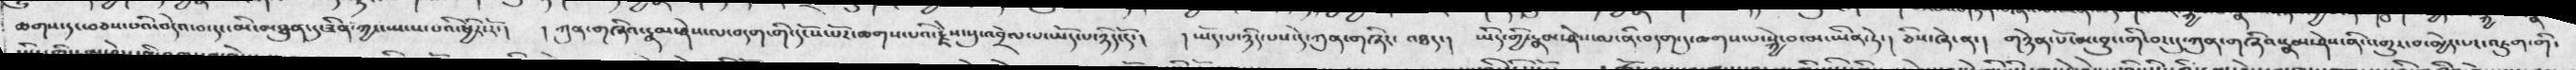ཆགས་དང་བཅས་པའི་བདེའ་བ་དང་མི་མཐུན་དུ་ཟིན་ཀྱང་སྤངས་པའི་ཕྱིར་རོ་།  །ཀུན་གཞིའ་རྣམ་ཤེས་ལ་བདག་གི་དངོས་པར་ཆགས་པའི་རྗེས་སུ་འབྲེལ་པ་ཡོད་པ་ཉིད་དོ་།  ། ཡོད་པ་ཉིད་པས་དེ་ཀུན་གཞིར་འཐད་།  ཡིད་གྱི་རྣམ་ཤེས་མ་ནི་བདག་དུ་ཆགས་པ་སྐྱེ་བ་ཡིན་ཏེ་།  ཅིས་ཞེ་ན་།  གཉེན་པོ་མ་བྱུང་གི་བར་དུ་ཀུན་གཞིའ་རྣམ་ཤེས་ནི་འགྱུར་བ་མྱེད་པར་འཇུག་གི་
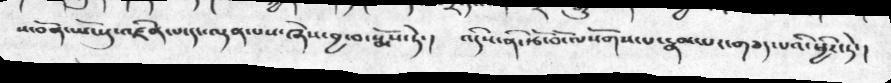ས་བོན་ཡོངསུ་འཛིན་པ་དང་ལྡན་པས་ཞེས་བྱ་བ་སྨོས་ཏེ་།   འདིས་ནི་རྩོ་བོ་ལསོགས་པ་རྣམ་པར་གཅད་པའི་ཕྱིར་།
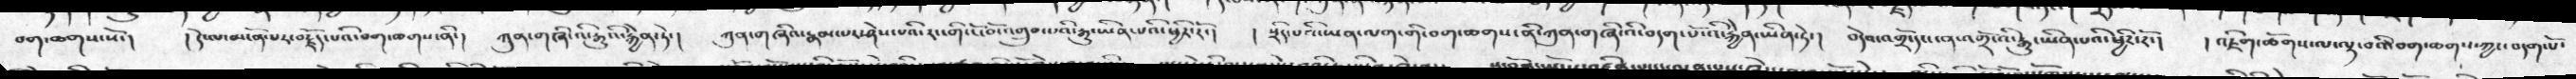བག་ཆགས་སོ་།  ། དེ་ལ་མངོན་་པར་བརྗོད་པའི་བག་ཆགས་ནི་།  ཀུན་གཞི་པའི་རྒྱུའི་རྐྱེན་ཏེ་།  ཀུན་གཞིའ་རྣམ་པར་ཤེས་པའི་རང་གི་གོ་བོ་གྲུབ་པའི་རྒྱུ་ཡིན་པའི་ཕྱིར་རོ་།  ། སྲིད་པའི་ཡན་ལག་གི་བག་ཆགས་ནི་ཀུན་གཞི་འི་བདག་པོ་འི་རྐྱེན་ཡིན་ཏེ་།  བདེའ་འགྲོ་དང་ན་འགྲོའི་རྒྱུ་ཡིན་པའི་ཕྱིར་།  ། འཇིག་ཚོགས་ལ་ལྟ་བའི་བག་ཆགས་ཀྱང་བདག་པོ་
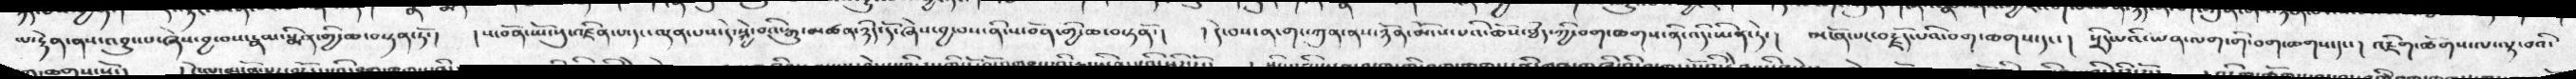ལ་རྟེན་ནས་འབྱུང་པ་ཞེས་བྱ་བས་རྣམ་སྨིན་གྱི་ཆ་བསྟན་ཏོ་།  །ས་བོན་ཡོངསུ་འཛིན་པ་དང་ལྡན་པས་དེ་སྐྱེ་བའི་རྒྱུ་མཚན་ཉིད་དོ་ཞེས་བྱ་བས་ནི་ས་བོན་གྱི་ཆ་བསྟནོ་།  ། དེ་བས་ན་གང་ཀུན་ན་ཉོན་མོངས་པའི་ཆོས་ཐཾད་ཀྱི་བག་ཆགས་ནི་འདི་ཡིན་ཏེ་།  མངོན་པར་བརྗོད་པའི་བག་ཆགས་དང་།  སྲིད་པའི་ཡན་ལག་གི་བག་ཆགས་དང་།  འཇིག་ཚོགས་ལ་ལྟ་བའི་
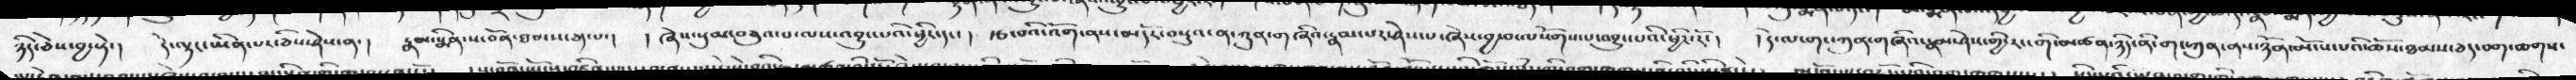ཉིད་ཅེས་བྱ་སྟེ་།  དེ་ལྟར་ཡིན་པར་ཅིས་ཤེས་ན་།  རྣམ་སྨིན་ས་བོན་ཐམས་ཅད་པ་།  ། ཞེས་སུམ་བཅུའ་པ་ལས་འབྱུང་པའི་ཕྱིར་དང་།  རྩ་བའི་འོག་ནས་མདོར་བསྡུས་ན་ཀུན་གཞིའ་རྣམ་པར་ཤེས་པ་ཞེས་བྱ་བ་ལསོགས་པ་འབྱུང་པའི་ཕྱིར་རོ་།  ། དེ་ལ་གང་ཀུན་གཞིའ་རྣམ་ཤེས་གྱི་རང་གི་མཚན་ཉིད་ནི་གང་ཀུན་ནས་ཉོན་མོངས་པའི་ཆོས་ཐམས་ཅད་བག་ཆགས་
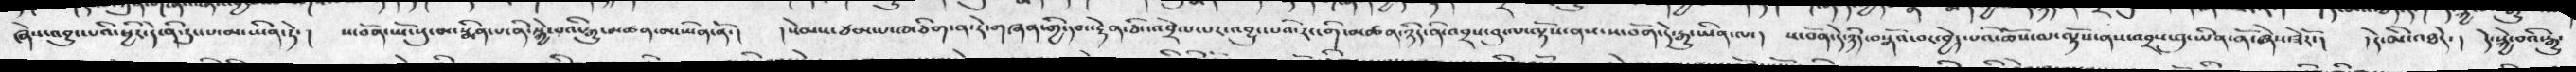ཞེས་འབྱུང་པའི་ཕྱིར་དེ་ན་རུས་པ་མ་ཡིན་ཏེ་།  ས་བོན་ཡོངས་སུ་མ་སྨིན་པ་ན་སྐྱེ་བའི་རྒྱུ་མཚན་མ་ཡིན་ནོ་།  །སེམས་ཙམ་པ་ཁ་ཅིག་ན་རེ་གཞན་གྱི་དབང་རྟེན་མི་འབྲེལ་པར་འབྱུང་པའི་རང་གི་མཚན་ཉིད་ནི་འབྲས་བུ་ལ་ལྟོས་ནས་ས་བོན་དེ་རྒྱུ་ཡིན་ལ་།  ས་བོན་དེ་ཉིད་བསྒོམ་བར་བྱེད་པའི་ཆོས་ལ་ལྟོས་ནས་འབྲས་བུ་ཡིན་ནོ་ཞེས་ཟེརོ་།  དེར་མི་འཐདེ་།  དེ་སྐྱེ་བའི་རྒྱུ་
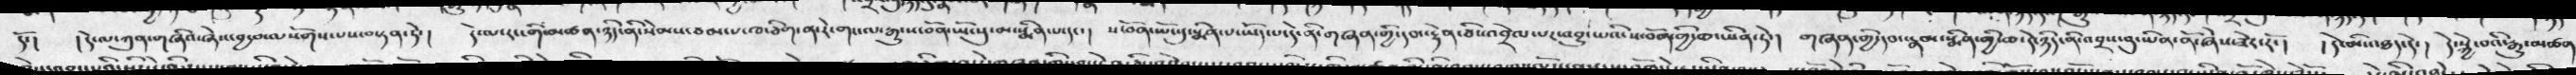དོ་།  ། དེ་ལ་ཀུན་གཞིའ་ཞེས་བྱ་བ་ལསོགས་པས་བསྟན་ཏེ་།  དེ་ལ་རང་གི་མཚན་ཉིད་ནི་སེམས་ཙམ་པ་ཁ་ཅིག་ན་རེ་གང་ལ་ས་བོན་ཡོངསུ་མ་སྨིན་པ་དང་།  ས་བོན་ཡོངསུ་སྨིན་པ་ཡོད་པ་དེ་ནི་གཞན་གྱི་དབང་རྟེན་ཅིང་འབྲེལ་པར་འབྱུང་པའི་ས་བོན་གྱི་ཆ་ཡིན་ཏེ་།  གཞན་གྱི་དབང་རྣམ་སྨིན་གྱི་ཁ་དེ་ཉིད་ནི་འབྲས་བུ་ཡིན་ནོ་ཞེས་ཟེར་རོ་།  །དེ་མི་འཐད་དེ་།  དེ་སྐྱེ་བའི་རྒྱུ་མཚན
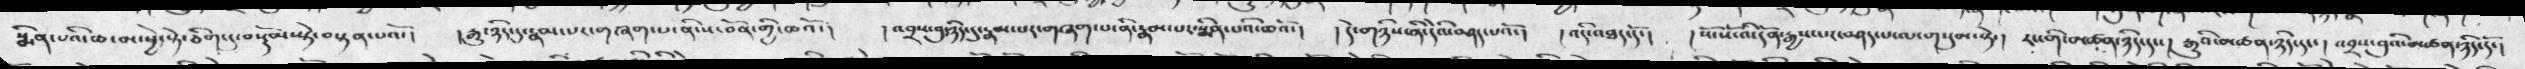སྨིན་པའི་ཆ་མ་ཕྱེ་སྟེ་ཅིག་དུ་བསྡོམས་ཏེ་བསྟན་པའོ་།  །རྒྱུ་ཉིད་དུ་རྣམ་པར་གཞག་པ་ནི་ས་བོན་གྱི་ཆའོ་།  །འབྲས་བུ་ཉིད་དུ་རྣམ་པ་གཞག་པ་ནི་རྣམ་པར་སྨིན་པའི་ཆའོ་།  ། དེ་གཉིས་ནི་དེའི་བཤད་པའོ་།  ། འདི་འཐད་དོ་།  །སོ་སོ་འི་དོན་རྒྱས་པར་བཤད་པ་ལ་གསུམ་སྟེ་།  རང་གི་མཚན་ཉིད་དང་།  རྒྱུའི་མཚན་ཉིད་དང་།   འབྲས་བུའི་མཚན་ཉིད་དོ་།
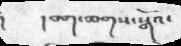།     ། བག་ཆགས་སྒོའ་
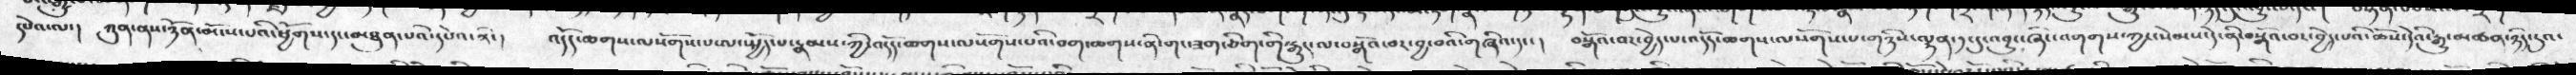དཔེའ་ལ་།  ཀུན་ནས་ཉོན་མོངས་པའི་ཕྱོགས་དང་མཐུན་པའི་དཔེའ་ནི་།  འདོད་ཆགས་ལསོགས་པ་ལ་སྤྱོད་པ་རྣམས་ཀྱི་འདོད་ཆགས་ལསོགས་པའི་བག་ཆགས་ནི་གང་ཟག་ཅིག་གི་རྒྱུར་ལ་བསྒོའ་བར་བྱ་བའི་གཞིའ་དང་།  བསྒོའ་བར་བྱེད་པ་འདོད་ཆགས་ལསོགས་པ་གཉིས་ལྷན་༡་དུ་འབྱུང་ཞིང་འགགས་ཀྱང་སེམས་དེ་ནི་བསྒོའ་བར་བྱེད་པའི་ཆོས་དེའི་རྒྱུ་མཚན་ཉིད་དུའ་
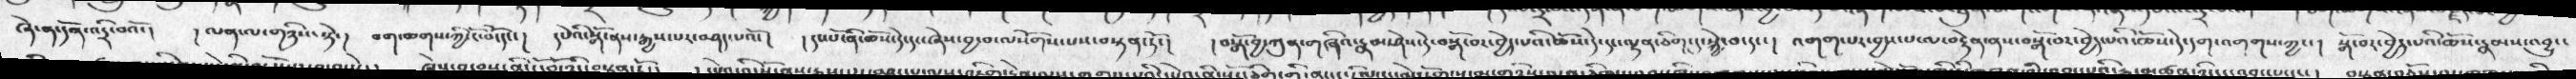ཞེ་ན་དོན་འདྲི་བའོ་།  །ལན་ལ་གཉིས་སྟེ་།  བག་ཆགས་ཀྱི་ངོ་བོ་དང་།  དཔེའི་སྒོ་ནས་རྒྱས་པར་བཤད་པའོ་།  །དང་པོ་ནི་ཆོས་དེ་དང་ཞེས་བྱ་བ་ལསོགས་པས་བསྟན་ཏོ་།  །བསྒོ་བྱ་ཀུན་གཞིའ་རྣམ་ཤེས་དེ་བསྒོ་བར་བྱེད་པའི་ཆོས་དེ་དང་ལྷན་ཅིག་དུ་སྐྱེ་བ་དང་།  འགག་པར་བྱས་པ་ལ་བརྟེན་ནས་བསྒོ་བར་བྱེད་པའི་ཆོས་དེ་དག་འགགས་ཀྱང་།  སྒོ་བར་བྱེད་པའི་ཆོས་རྣམས་འབྱུང་
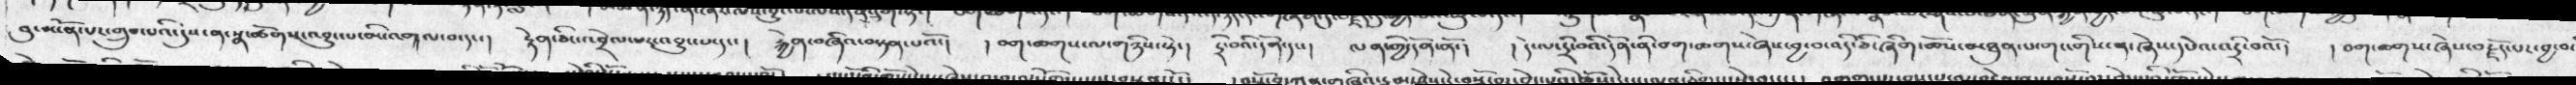བུ་མངོན་པར་གྲུབ་པའི་དུས་ན་སྣ་ཚོགས་འབྱུང་པ་མི་འགལ་བ་དང་།  རྟེན་ཅིང་འབྲེལ་པར་འབྱུང་པ་དང་།  རྐྱེན་བཞིའ་བསྟན་པའོ་།  ། བག་ཆགས་ལ་གཉིས་སྟེ་།   དྲི་བའི་དོན་དང་།  ལན་གྱི་དོན་ནོ་།  ། དེ་ལ་དྲི་བའི་དོན་ནི་བག་ཆགས་ཞེས་བྱ་བ་འདི་ཅི་ཞིག་ཆོས་མཐུན་པ་གང་གིས་ན་ཞེས་དཔེའ་འདྲི་བའོ་།  ། བག་ཆགས་ཞེས་བརྗོད་པར་བྱ་བ
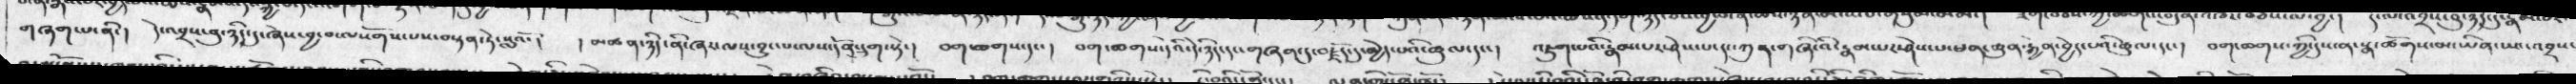གཞག་པ་ནི་།  དེ་འབྲས་བུ་ཉིད་དུ་ཞེས་བྱ་བ་ལསོགས་པས་བསྟན་ཏེ་སླའོ་།  ། མཚན་ཉིད་ནི་ཞར་ལས་བྱུང་པ་ལས་དོན་དྲུག་སྟེ་།  བག་ཆགས་དང་། བག་ཆགས་དེའི་དེ་ཉིད་དང་གཞན་དུ་བརྗོད་དུ་མྱེད་པའི་ཚུལ་དང་།  འཇུག་པའི་རྣམ་པར་ཤེས་པ་དང་ཀུན་གཞིའི་རྣམ་པར་ཤེས་པ་ཕན་ཚུན་རྐྱེན་བྱེད་པའི་ཚུལ་དང་།  བག་ཆགས་ཀྱི་དུས་ན་སྣ་ཚོགས་མ་ཡིན་ཡང་འབྲས་
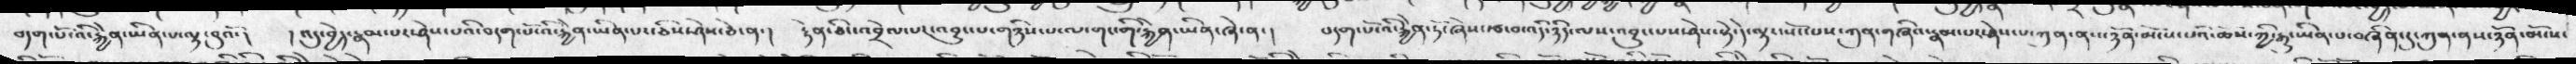བདག་པོའི་རྐྱེན་པ་ལྟ་བུའོ་།  །འདུ་བྱེད་རྣམ་པར་ཤེས་པའི་བདག་པོའི་རྐྱེན་ཡིན་པར་ཅིས་ཤེས་ཅེ་ན་།  རྟེན་ཅིང་འབྲེལ་པར་འབྱུང་པ་གཉིས་པ་ལ་གང་གི་རྐྱེན་ཡིན་ཞེ་ན་།  བདག་པོ་འི་རྐྱེན་ཏོ་ཞེས་རྩ་བ་འདི་ཉིད་ལས་འབྱུང་པས་ཤེས་སྟེ་དེ་ལྟ་སྤོང་པས་ཀུན་གཞིའ་རྣམ་པར་ཤེས་པ་ཀུན་གཞིའ་རྣམ་པར་ཤེས་པ་ཀུན་ནས་ཉོན་མོངས་པའི་ཆོས་ཀྱི་རྒྱུ་ཡིན་པ་བཞིན་དུ་ཀུན་ནས་ཉོན་མོངས་
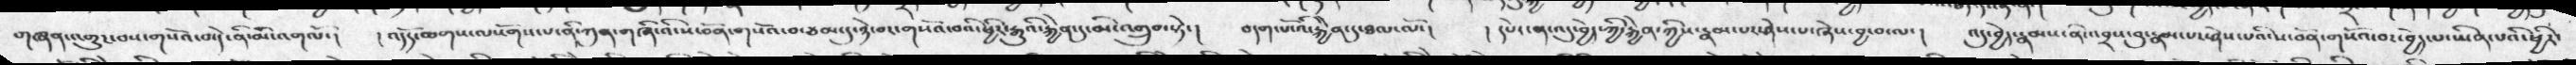གཞན་འགྱུར་བས་གསོའ་བ་དེ་ནི་མི་འགལོ་།  ། འདོད་ཆགས་ལསོགས་པ་ནི་ཀུན་གཞི་འི་ས་བོན་གསོའ་བ་ཙམ་དུ་ཉེ་བར་གསོའ་བའི་ཕྱིར་རྒྱུའི་རྐྱེན་དུ་མི་འགྲུབ་སྟེ་།  བདག་པོའི་རྐྱེན་དུ་ཐལ་ལོ་།    ། དཔེར་ན་འདུ་བྱེད་ཀྱི་རྐྱེན་ཀྱིས་རྣམ་པར་ཤེས་པ་ཞེས་བྱ་བ་ལ་།  འདུ་བྱེད་རྣམས་ནི་འབྲས་བུ་རྣམ་པར་ཤེས་པའི་ས་བོན་གསོའ་བར་བྱེད་པ་ཡིན་པའི་ཕྱིར་
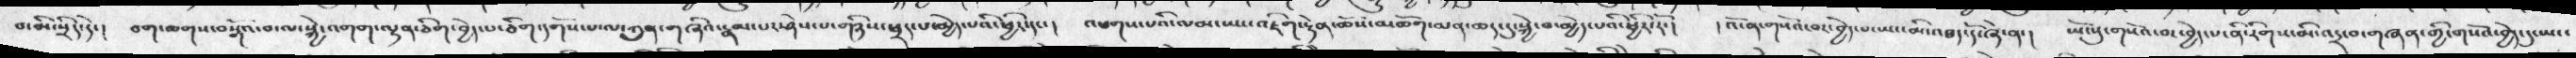བ་མི་སྲིད་དེ་།  བག་ཆགས་བསྒོའ་བ་ལ་སྐྱེ་འགག་ལྷན་ཅིག་བྱེད་པ་ཅིག་དགོས་པ་ལ་ཀུན་གཞིའ་རྣམ་པར་ཤེས་པ་གཉིས་ཕྲད་པ་མྱེད་པའི་ཕྱིར་དང་།  འཕགས་པའི་ལམ་ཡང་འཇིག་རྟེན་ཆོས་མཆོགས་མན་ཆད་དུ་སྐྱེ་བ་མྱེད་པའི་ཕྱིར་རོ་།  ། འོ་ན་གསོའ་བར་བྱེད་པ་ཡང་མི་འཐད་དོ་ཞེ་ན་།  ཡོངསུ་གསོའ་བར་བྱེད་པ་ན་རིགས་མ་འདྲ་བ་གཞན་གྱི་གསོའ་བྱེད་དུ་ཡང་
